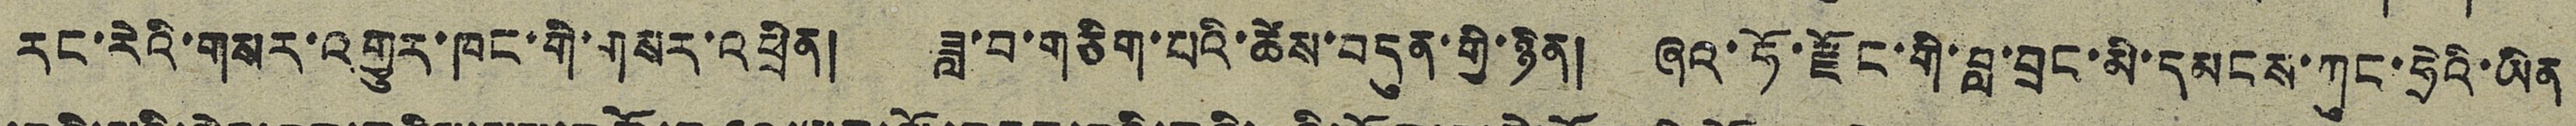རང་རེའི་གསར་འགྱུར་ཁང་གི་གསར་འཕྲིན། ཟླ་བ་གཅིག་པའི་ཚེས་བདུན་གྱི་ཉིན། ཞའ་ཧོ་རྫོང་གི་བླ་བྲང་མི་དམངས་ཀུང་ཧྲེའི་ཡིན
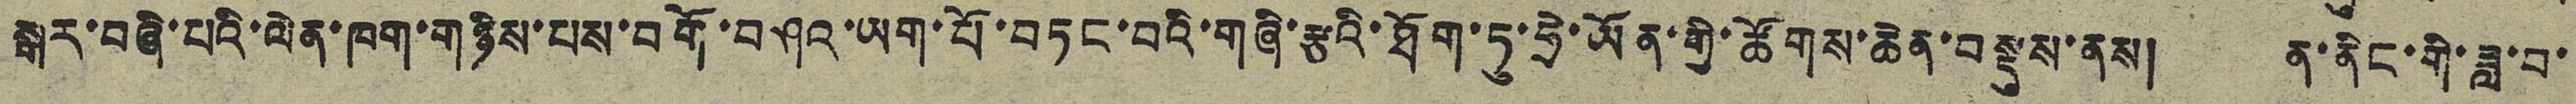སྒར་བཞི་པའི་ལེན་ཁག་གཉིས་པས་བགོ་བཤའ་ཡག་པོ་བཏང་བའི་གཞི་རྩའི་ཐོག་ཏུ་ཧྲེ་ཡོན་གྱི་ཚོགས་ཆེན་བསྡུས་ནས། ན་ནིང་གི་ཟླ་བ་
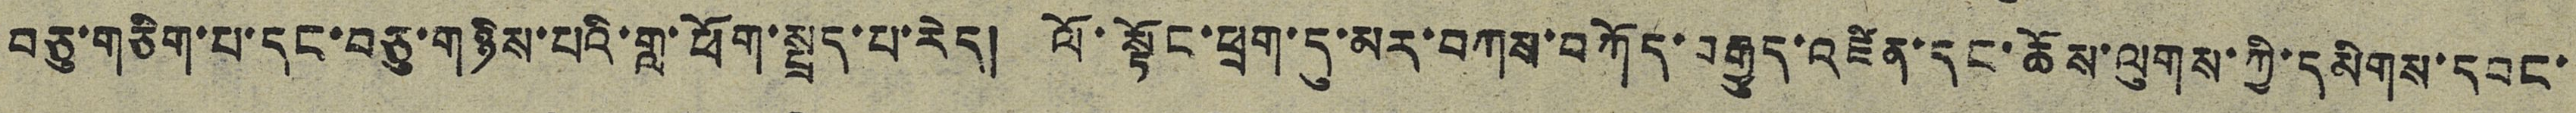བཅུ་གཅིག་པ་དང་བཅུ་གཉིས་པའི་གླ་ཕོག་སྤྲད་པ་རེད། ལོ་སྟོང་ཕྲག་དུ་མར་བཀས་བཀོད་བརྒྱུད་འཛིན་དང་ཆོས་ལུགས་ཀྱི་དམིགས་དབང་
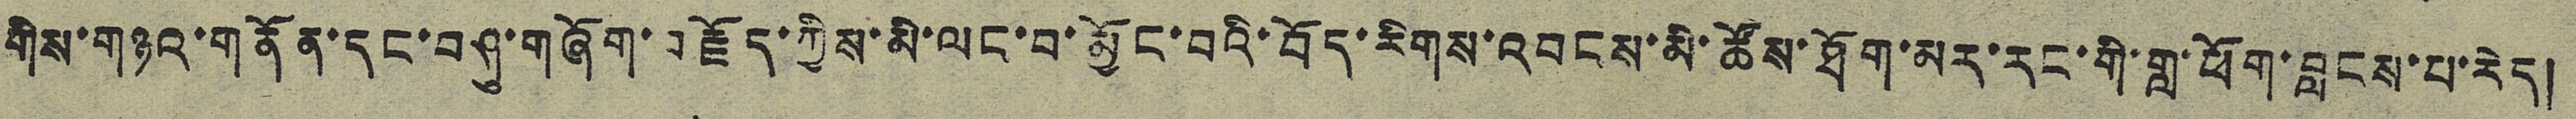གིས་གཉའ་གནོན་དང་བཤུ་གཞོག་བརྗོད་ཀྱིས་མི་ལང་བ་མྱོང་བའི་བོད་རིགས་འབངས་མི་ཚོས་ཐོག་མར་རང་གི་བླ་ཕོག་བླངས་པ་རེད།
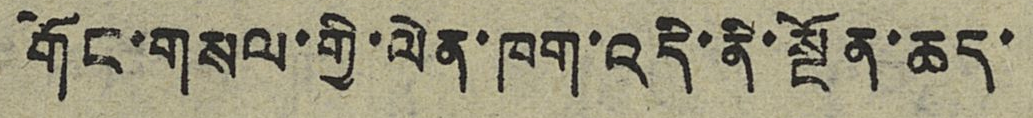གོང་གསལ་གྱི་ལེན་ཁག་འདི་ནི་སྔོན་ཆད་
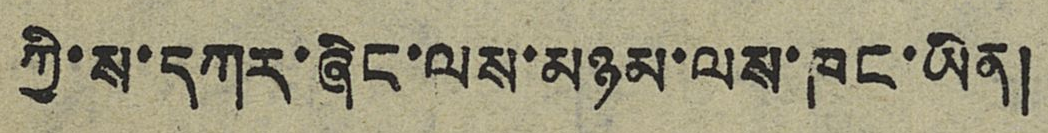ཀྱི་ས་དཀར་ཞིང་ལས་མཉམ་ལས་ཁང་ཡིན།
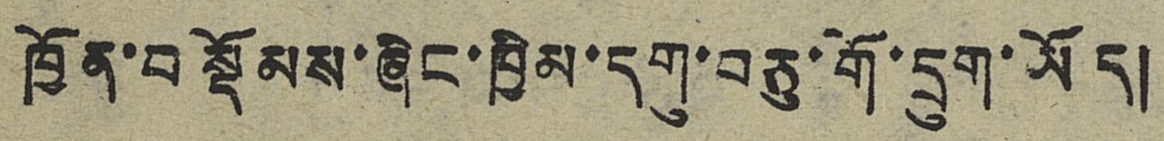ཁྱོན་བསྡོམས་ཞིང་ཁྱིམ་དགུ་བཅུ་གོ་དྲུག་ཡོད།
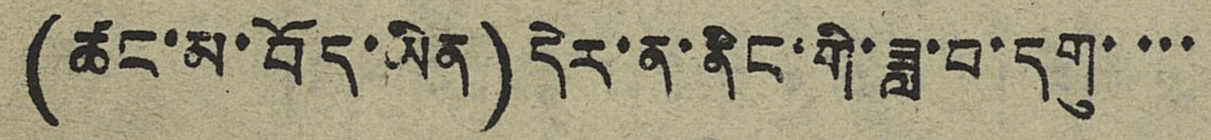(ཚང་མ་བོད་ཡིན) དེར་ན་ནིང་གི་ཟླ་བ་དགུ་་་་
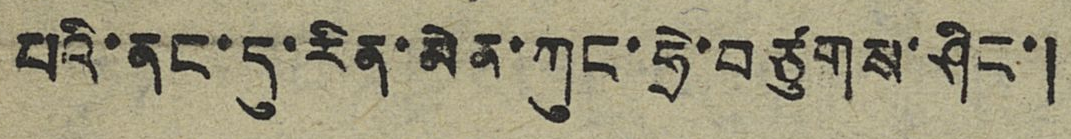པའི་ནང་དུ་རིན་མེན་ཀུང་ཧྲེ་བཙུགས་ཤིང་།
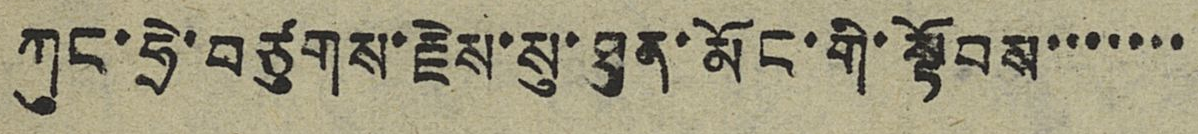ཀུང་ཧྲེ་བཙུགས་རྗེས་སུ་ཐུན་མོང་གི་སྟོབས་་་་་་་
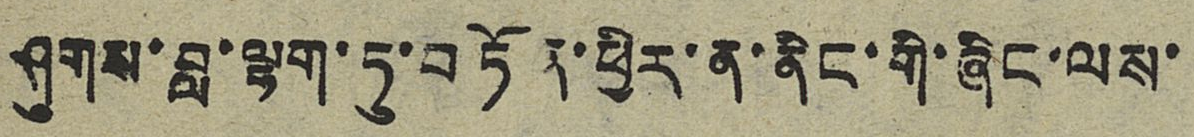ཤུགས་བླ་ལྷག་ཏུ་བཏོན་ཕྱིར་ན་ནིང་གི་ཞིང་ལས་
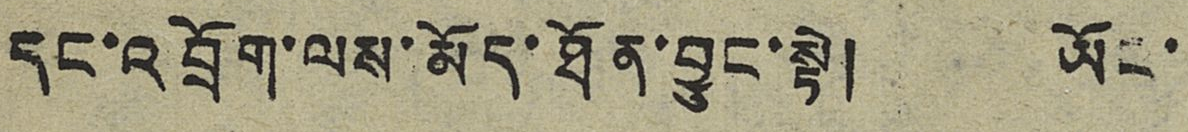དང་འབྲོག་ལས་མོད་ཐོན་བྱུང་སྟེ། ཡོང་
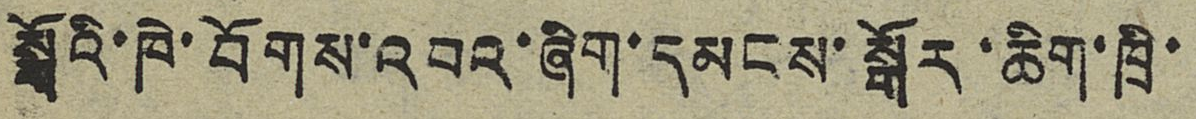སྒོའི་ཁེ་བོགས་འབའ་ཞིག་དམངས་སྒོར་ཆིག་ཁྲི་
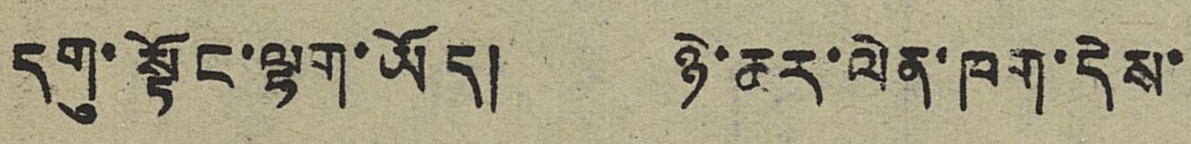དགུ་སྟོང་ལྷག་ཡོད། ཉེ་ཆར་ལེན་ཁག་དེས་
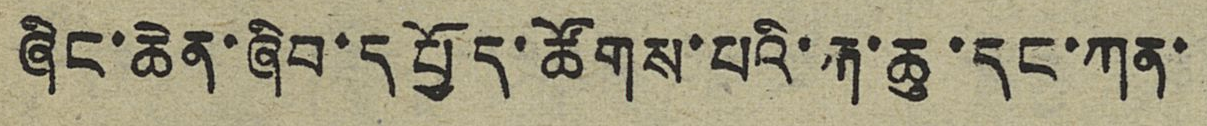ཞིང་ཆེན་ཞིབ་དཔྱོད་ཚོགས་པའི་རྐ་ཆུ་དང་ཀན་
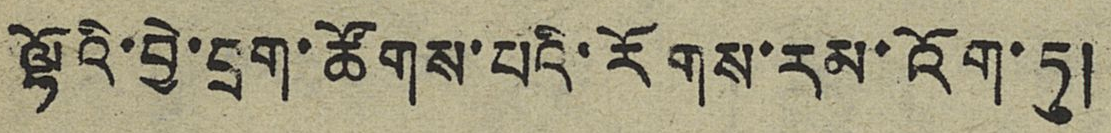ལྷོའི་བྱེ་བྲག་ཚོགས་པའི་རོགས་རམ་འོག་ཏུ།
